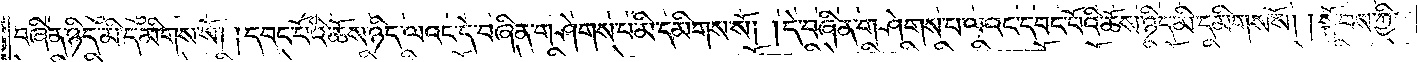བཞིན་ཉིད་མི་དམིགས་སོ། །དབང་པོའི་ཆོས་ཉིད་ལའང་དེ་བཞིན་གཤེགས་པ་མི་དམིགས་སོ། །དེ་བཞིན་གཤེགས་པ་ལའང་དབང་པོའི་ཆོས་ཉིད་མི་དམིགས་སོ། །སྟོབས་ཀྱི་
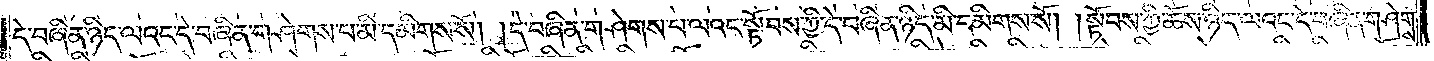དེ་བཞིན་ཉིད་ལའང་དེ་བཞིན་གཤེགས་པ་མི་དམིགས་སོ། །དེ་བཞིན་གཤེགས་པ་ལའང་སྟོབས་ཀྱི་དེ་བཞིན་ཉིད་མི་དམིགས་སོ། །སྟོབས་ཀྱི་ཆོས་ཉིད་ལའང་དེ་བཞིན་གཤེགས་
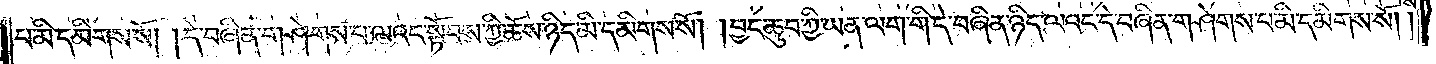པ་མི་དམིགས་སོ། །དེ་བཞིན་གཤེགས་པ་ལའང་སྟོབས་ཀྱི་ཆོས་ཉིད་མི་དམིགས་སོ། །བྱང་ཆུབ་ཀྱི་ཡན་ལག་གི་དེ་བཞིན་ཉིད་ལའང་དེ་བཞིན་གཤེགས་པ་མི་དམིགས་སོ། །
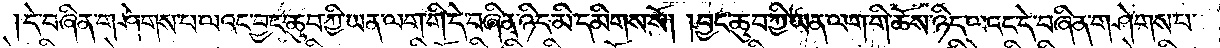དེ་བཞིན་གཤེགས་པ་ལའང་བྱང་ཆུབ་ཀྱི་ཡན་ལག་གི་དེ་བཞིན་ཉིད་མི་དམིགས་སོ། །བྱང་ཆུབ་ཀྱི་ཡན་ལག་གི་ཆོས་ཉིད་ལའང་དེ་བཞིན་གཤེགས་པ་
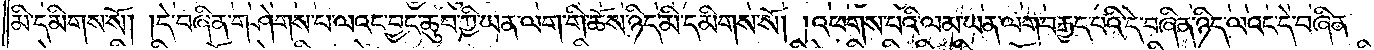མི་དམིགས་སོ། །དེ་བཞིན་གཤེགས་པ་ལའང་བྱང་ཆུབ་ཀྱི་ཡན་ལག་གི་ཆོས་ཉིད་མི་དམིགས་སོ། །འཕགས་པའི་ལམ་ཡན་ལག་བརྒྱད་པའི་དེ་བཞིན་ཉིད་ལའང་དེ་བཞིན་
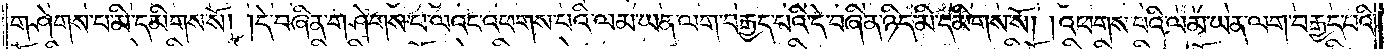གཤེགས་པ་མི་དམིགས་སོ། །དེ་བཞིན་གཤེགས་པ་ལའང་འཕགས་པའི་ལམ་ཡན་ལག་བརྒྱད་པའི་དེ་བཞིན་ཉིད་མི་དམིགས་སོ། །འཕགས་པའི་ལམ་ཡན་ལག་བརྒྱད་པའི་
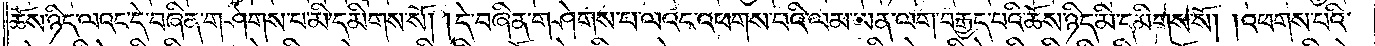ཆོས་ཉིད་ལའང་དེ་བཞིན་གཤེགས་པ་མི་དམིགས་སོ། །དེ་བཞིན་གཤེགས་པ་ལའང་འཕགས་པའི་ལམ་ཡན་ལག་བརྒྱད་པའི་ཆོས་ཉིད་མི་དམིགས་སོ། །འཕགས་པའི་
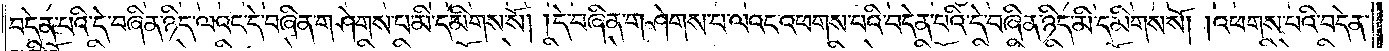བདེན་པའི་དེ་བཞིན་ཉིད་ལའང་དེ་བཞིན་གཤེགས་པ་མི་དམིགས་སོ། །དེ་བཞིན་གཤེགས་པ་ལའང་འཕགས་པའི་བདེན་པའི་དེ་བཞིན་ཉིད་མི་དམིགས་སོ། །འཕགས་པའི་བདེན་
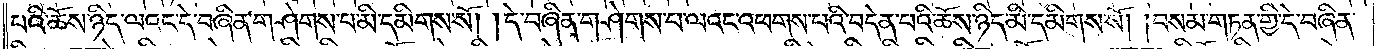པའི་ཆོས་ཉིད་ལའང་དེ་བཞིན་གཤེགས་པ་མི་དམིགས་སོ། །དེ་བཞིན་གཤེགས་པ་ལའང་འཕགས་པའི་བདེན་པའི་ཆོས་ཉིད་མི་དམིགས་སོ། །བསམ་གཏན་གྱི་དེ་བཞིན་
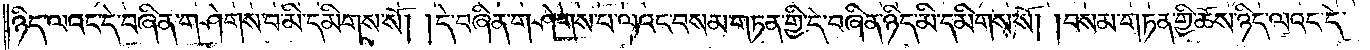ཉིད་ལའང་དེ་བཞིན་གཤེགས་པ་མི་དམིགས་སོ། །དེ་བཞིན་གཤེགས་པ་ལའང་བསམ་གཏན་གྱི་དེ་བཞིན་ཉིད་མི་དམིགས་སོ། །བསམ་གཏན་གྱི་ཆོས་ཉིད་ལའང་དེ་
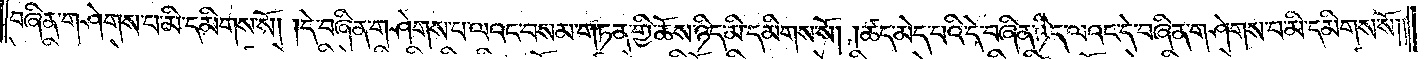བཞིན་གཤེགས་པ་མི་དམིགས་སོ། །དེ་བཞིན་གཤེགས་པ་ལའང་བསམ་གཏན་གྱི་ཆོས་ཉིད་མི་དམིགས་སོ། །ཚད་མེད་པའི་དེ་བཞིན་ཉིད་ལའང་དེ་བཞིན་གཤེགས་པ་མི་དམིགས་སོ༎
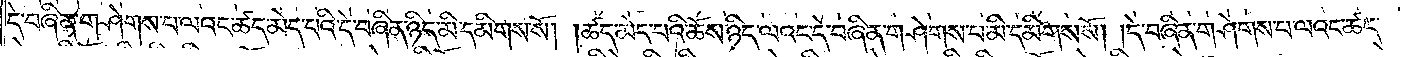དེ་བཞིན་གཤེགས་པ་ལའང་ཚད་མེད་པའི་དེ་བཞིན་ཉིད་མི་དམིགས་སོ། །ཚད་མེད་པའི་ཆོས་ཉིད་ལའང་དེ་བཞིན་གཤེགས་པ་མི་དམིགས་སོ། །དེ་བཞིན་གཤེགས་པ་ལའང་ཚད་
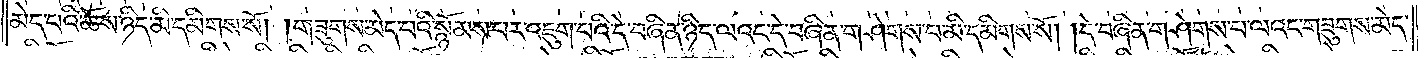མེད་པའི་ཆོས་ཉིད་མི་དམིགས་སོ༎ གཟུགས་མེད་པའི་སྙོམས་པར་འཇུག་པའི་དེ་བཞིན་ཉིད་ལའང་དེ་བཞིན་གཤེགས་པ་མི་དམིགས་སོ། །དེ་བཞིན་གཤེགས་པ་ལའང་གཟུགས་མེད་
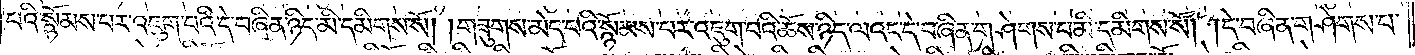པའི་སྙོམས་པར་འཇུག་པའི་དེ་བཞིན་ཉིད་མི་དམིགས་སོ། །གཟུགས་མེད་པའི་སྙོམས་པར་འཇུག་པའི་ཆོས་ཉིད་ལའང་དེ་བཞིན་གཤེགས་པ་མི་དམིགས་སོ། །དེ་བཞིན་གཤེགས་པ་
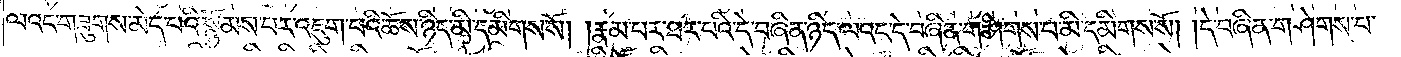ལའང་གཟུགས་མེད་པའི་སྙོམས་པར་འཇུག་པའི་ཆོས་ཉིད་མི་དམིགས་སོ། །རྣམ་པར་ཐར་པའི་དེ་བཞིན་ཉིད་ལའང་དེ་བཞིན་གཤེགས་པ་མི་དམིགས་སོ། །དེ་བཞིན་གཤེགས་པ་
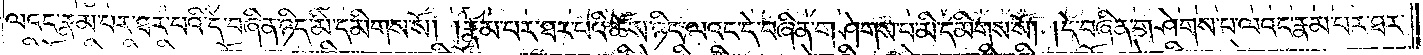ལའང་རྣམ་པར་ཐར་པའི་དེ་བཞིན་ཉིད་མི་དམིགས་སོ། །རྣམ་པར་ཐར་པའི་ཆོས་ཉིད་ལའང་དེ་བཞིན་གཤེགས་པ་མི་དམིགས་སོ། །དེ་བཞིན་གཤེགས་པ་ལའང་རྣམ་པར་ཐར་
